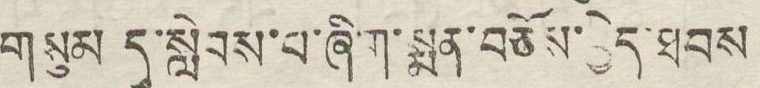གསུམ དུ་སླེབས་པ་ཞིག་སྨན་བཅོས་བྱེད་ཐབས
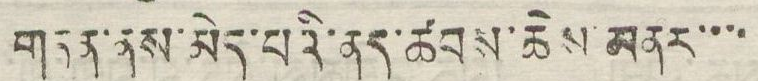གཏན་ནས་མེད་པའི་ནད་ཚབས་ཆེས མནར་་་་
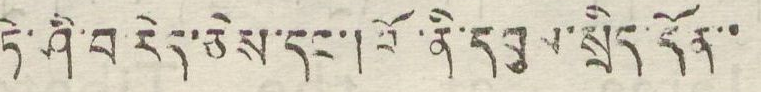ཏེ་ཤི་བ་རེད་ཅེས་དང་།བོ་ནི་དབུས་སྲིད་དོན་་
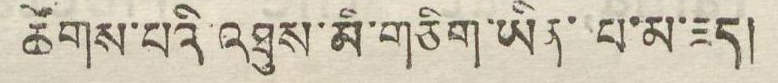ཚོགས་པའི་འཐུས་མི་གཅིག་ཡིན་པ་མ་ཟད།
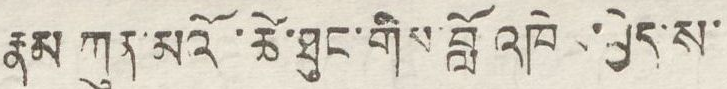རྣམ ཀུན་མའོ་ཚེ་ཐུང་གིས བློ འཁེར་བྱེད་ས་
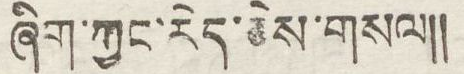ཞིག་ཀྱང་རེད་ཅེས་གསལ།།
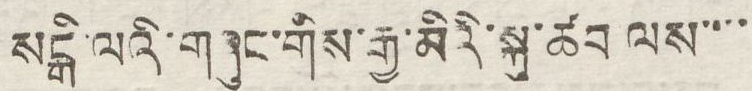སངྒི་ལའི་གཞུང་གིས་རྒྱ་མིའི་སྐུ་ཚབ ལས་་་་
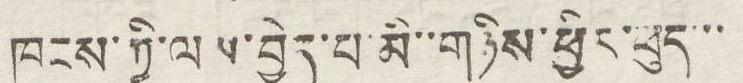ཁུངས་ཀྱི་ལས་བྱེད་པ་མི་་གཉིས་ཕྱིར་ཕུད་་་
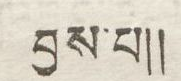བྱས་པ།།
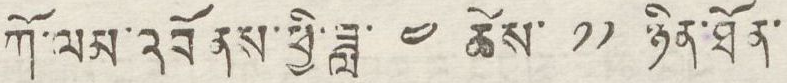ཀོ་ལམ་འབོ ནས་ཕྱི་ཟླ་ ༤ ཚེས་ ༡༡ ཉིན་ཐོན་
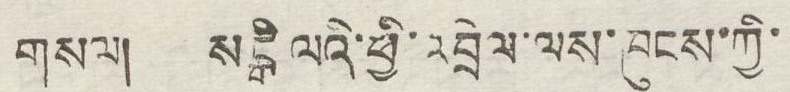གསལ། སངྒི ལའི་ཕྱི་འབྲེལ་ལས་ཁུངས་ཀྱི་
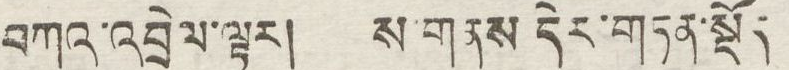བཀའ་འབྲེལ་ལྟར། ས་གནས དེར་གཏན་སྡོད
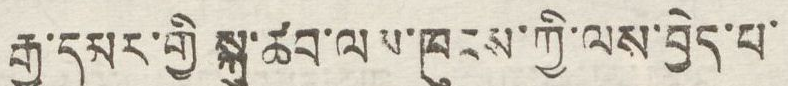རྒྱ་དམར་གྱི་སྐུ་ཚབ་ལས་ཁུངས་ཀྱིས་ལས་བྱེད་པ་
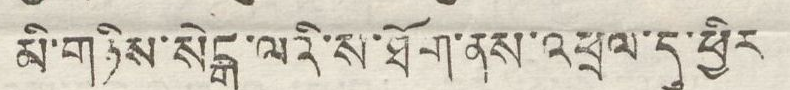མི་གཉིས་སེངྒ་ལའི་ས་ཐོག་ནས་འཕྲལ་དུ་ཕྱིར
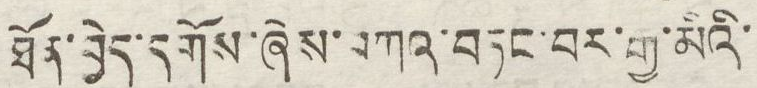ཐོན་བྱེད་དགོས་ཞེས་བཀའ་བཏང་བར་རྒྱ་མིའི་
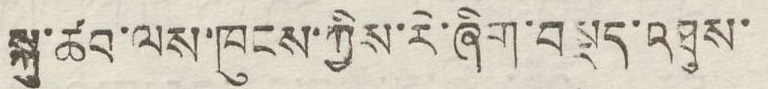སྐུ་ཚབ་ལས་ཁུངས་ཀྱིས་རེ་ཞིག་བསྡད་འཐུས་
